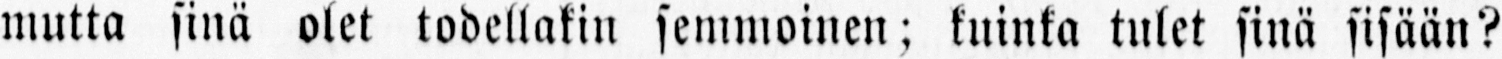mutta sinä olet todellakin semmoinen; kuinka tulet sinä sisään?
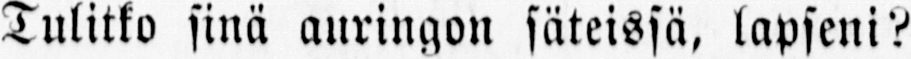Tulitko sinä auringon säteissä, lapseni?
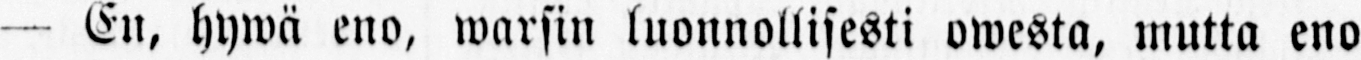— En, hywä eno, warsin luonnollisesti owesta, mutta eno
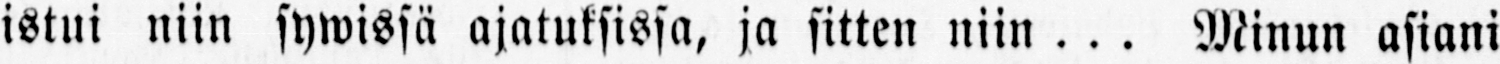istui niin sywissä ajatuksissa, ja sitten niin . . . Minun asiani
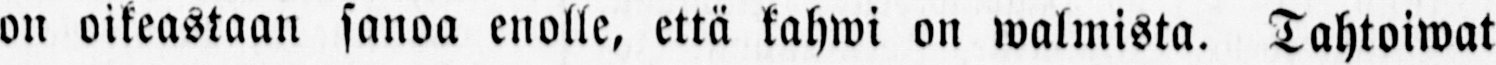on oikeastaan sanoa enolle, että kahwi on walmista. Tahtoiwat
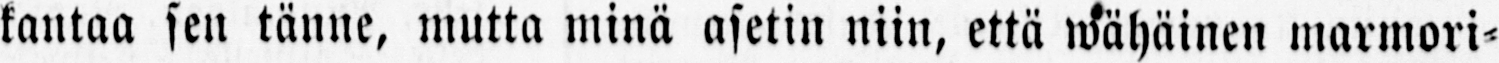kantaa sen tänne, mutta minä asetin niin, että wahäinen marmori-
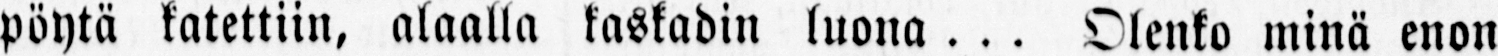pöytä katettiin, alaalla kaskadin luona . . . Olenko minä enon
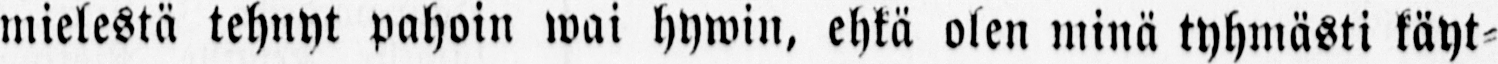mielestä tehnyt pahoin wai hywin, ehkä olen minä tyhmästi käyt-
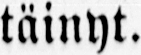täinyt.
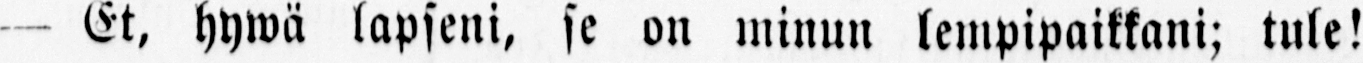— Et, hywä lapseni, se on minun lempipaikkani; tule!
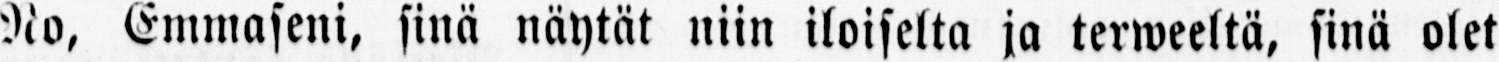No, Emmaseni, sinä näytät niin iloiselta ja terweeltä, sinä olet
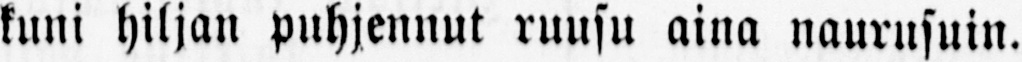kuni hiljan puhjennut ruusu aina naurusuin.
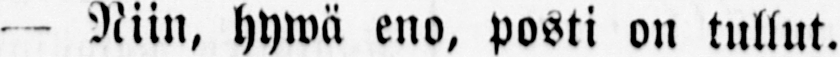— Niin, hywä eno, posti on tullut.
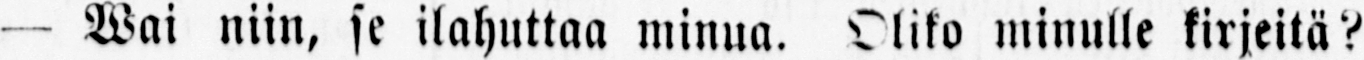— Wai niin, se ilahuttaa minua. Oliko minulle kirjeitä?
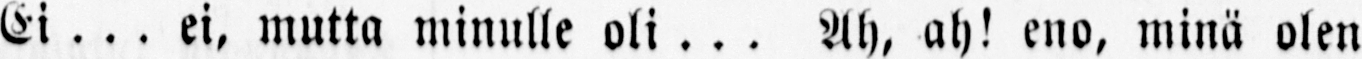Ei . . . ei, mutta minulle oli . . . Ah, ah! eno, minä olen
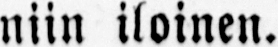niin iloinen.
